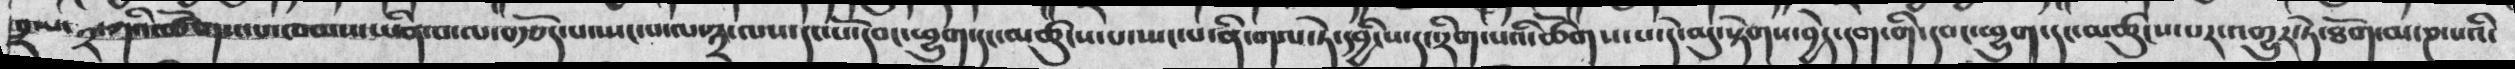༢་པ་༢་ཀའི་ཚོགས་པ་ཁམས་ཡིན་པ་ལ་བརྩོད་པ་སྤང་པ་ལ་༣་ལས་དང་པོ་དབང་ཕྱུག་དང་མཚུངས་པ་སྤང་པ་ནི་གལ་ཏེ་དབྱིངས་དང་རིག་པའི་ཚོགས་པ་དེ་མུ་སྟེགས་བྱེད་དག་གི་དབང་ཕྱུག་དང་མཚུངས་པར་འགྱུར་ཏེ་ཐོག་མ་ཎ་པའི་
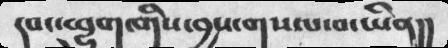དབང་ཕྱུག་གིས་བྱས་གསལ་བ་ཡིན།།
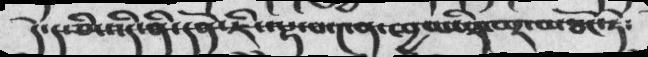དེ་ད་ཅི་འདི་ནི་དོན་ཇི་ལྟ་བ་༤ན་ཁྱབ་ཡིན་པར་མཐོང་ཏེ༴
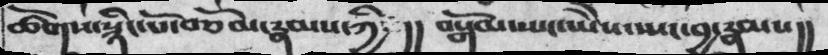ཚོགས་སྙིང་པོ་བཅོམ་རྣམས་ཀྱི།།   བསྒོམ་ཡང་ཡེེས་སྤང་བྱ་རྣམས།།
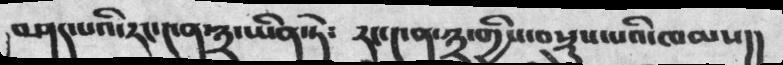བཤད་པའི་རང་༤ན་༣་ཡིན་ཏེ༴  རང་༩ན་༣་གྱིས་བསྡུས་པའི་ཁམས།།
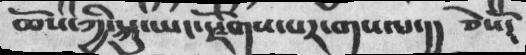ཆོས་ཀྱི་སྐུ་ཡང་སྫོགས་པར་གསལ་།།  ཅེསོ༴
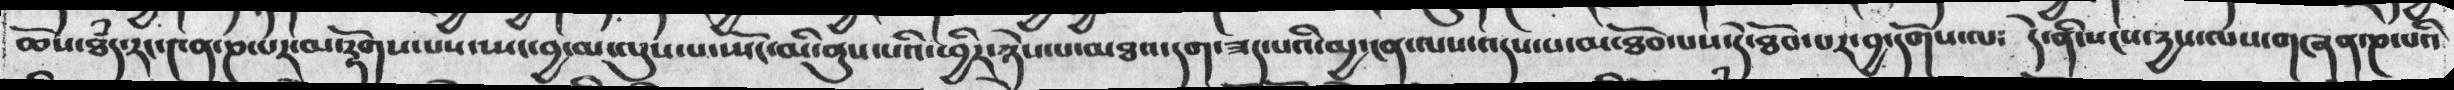ཆོས་ཐཾད་རང་༤ན་ཎ་པར་མ་རྟོགས་པས་ཡང་བྱ་མ་ལུས་པ་ཡོང་མི་ནུས་པའི་ཕྱིར་ཉེས་པ་མཐའ་དག་ཟད་པའི་མྱ་ངན་ལས་འདས་པ་མ་ཐོབ་པས་དེ་ཐོབ་པར་བྱ་དགོས་ལ༴ དེ་ནི་སངས་རྱས་ལས་གཞན་ཎ་པའི
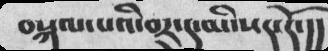བསྐལ་པའི་བར་དུ་མི་སད་དོ་།།
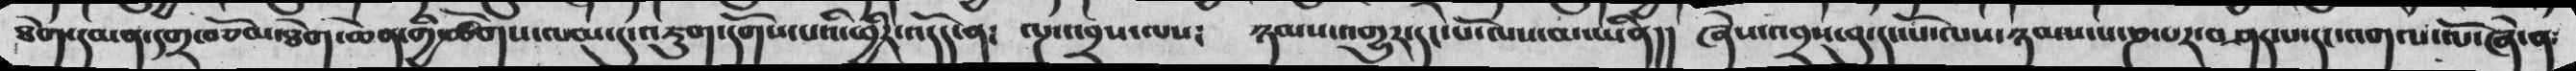ཐེག་དམན་དགྲ་བཅོམ་ཐེག་ཆེན་གྱི་ཚོགས་ལམ་དུ་འཇུག་དགོས་པའི་ཕྱིར་འདོད་ན༴ ལྔ་འབྲས་ལས༴  ཉམས་འགྱུར་དང་པོལས་མ་ཡིན།།  ཞེས་འབྲས་བུ་དང་པོ་ལས་ཉམས་པ་ཎ་པར་བཤད་པ་དང་འགལ་ལོ་ཞེ་ན༴
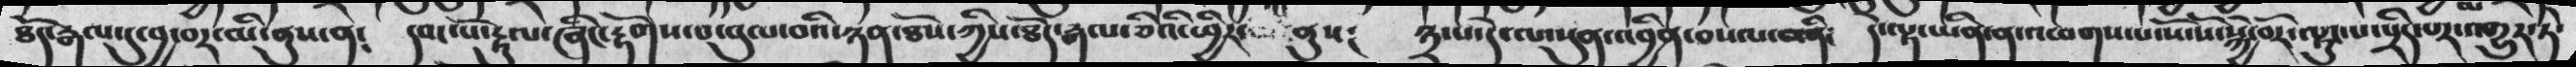ཐོད་རྒལ་དུ་བྱ་བར་མི་ནུས་ན༴  དབང་པོ་རྟུལ་ཞིང་རྟོགས་བ་བུལ་བའི་ཉན་ཐོས་ཀྱིས་ཐོད་རྒལ་ཅིའི་ཕྱིར་  ནུས༑  ༣་པ་དེ་ལ་སུན་འབྱིན་བསལ་བ་ནི་  དེ་ལྟ་ཡིན་ན་འཕགས་པ་སོ་སོ་སྐྱེ་བོར་ལྟུང་པ་སྲིད་པར་འགྱུར་ཏེ་
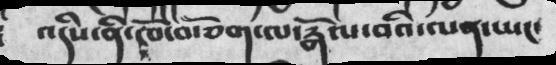འདིས་ནི་ཁོ་བོ་ཅག་ལ་རྒོལ་བའི་ལན་ཡང་
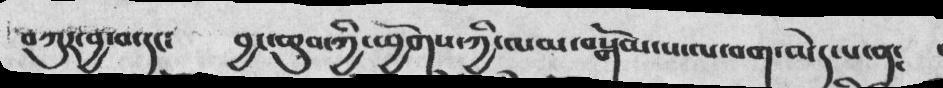བཀུར་བྱ་བ་དང༴ བྱང་ཆུབ་ཀྱི་ཕྱོགས་ཀྱི་ལམ་བསྒོམ་པ་ལ་བག་མེད་པ་ན༴
